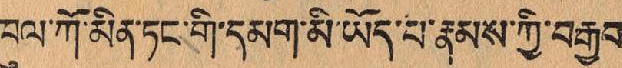ཁུལ་ཀོ་མིན་ཏང་གི་དམག་མི་ཡོད་པ་རྣམས་ཀྱི་བརྒྱབ་
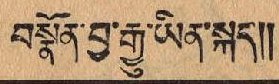བསྣོན་བྱ་རྒྱུ་ཡིན་སྐད།།
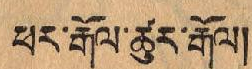ཕར་རྒོལ་ཚུར་རྒོལ།
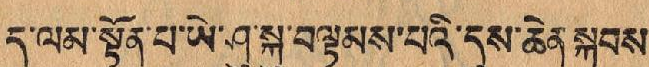ད་ལམ་སྟོན་པ་ཡེ་ཤུ་སྐུ་བལྟམས་པའི་དུས་ཆེན་སྐབས་
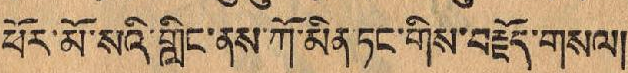ཕོར་མོ་སའི་གླིང་ནས་ཀོ་མིན་ཏང་གིས་བརྗོད་གསལ།
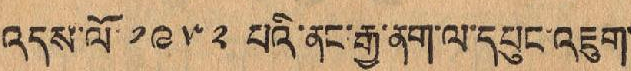འདས་ལོ་ ༡༩༥༢ པའི་ནང་རྒྱ་ནག་ལ་དཔུང་འཇུག་
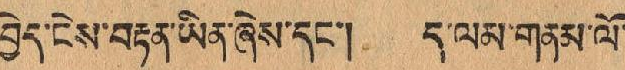བྱེད་ངེས་བརྟན་ཡིན་ཞེས་དང་། ད་ལམ་གནམ་ལོ་
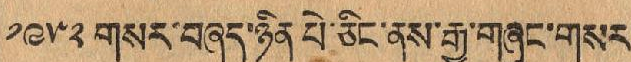༡༩༥༢ གསར་བཞད་ཉིན་པེ་ཅིང་ནས་རྒྱ་གཞུང་གསར་
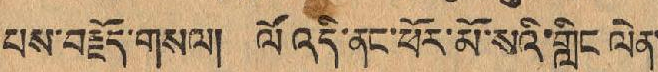པས་བརྗོད་གསལ། ལོ་འདི་ནང་ཕོར་མོ་སའི་གླིང་ལེན་
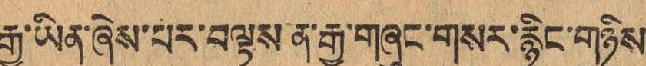རྒྱུ་ཡིན་ཞེས་པར་བལྟས་ན་རྒྱ་གཞུང་གསར་རྙིང་གཉིས་
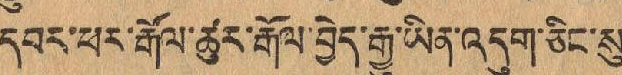དབར་ཕར་རྒོལ་ཚུར་རྒོལ་བྱེད་རྒྱུ་ཡིན་འདུག་ཅིང་སུ་
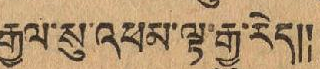རྒྱལ་སུ་འཕམ་ལྟ་རྒྱུ་རེད།།
